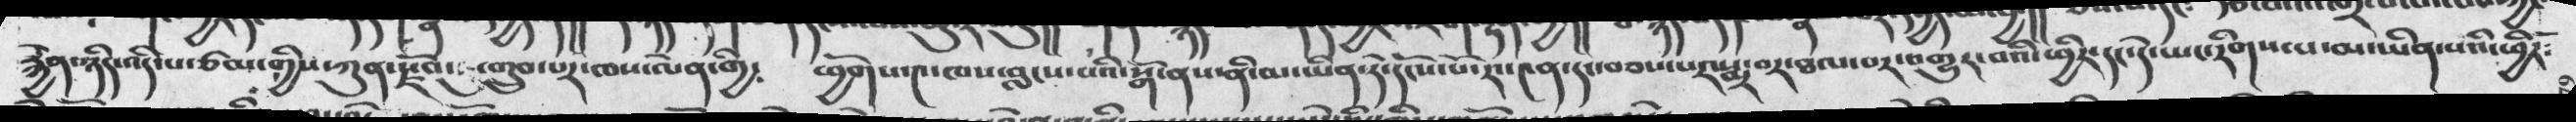རྐྱེན་ཉིད་འདི་པ་ཙམ་གྱིས་ཀུན་རྫོབ་ཏུ་གྲུབ་པར་ཁས་ལེན་གྱི༴  ཕྱོགས་༤་ཁས་བླངས་པའི་སྒོ་ནས་ནི་མ་ཡིན་ཏེ་དངོས་པོ་རང་༤ན་དང་བབས་པར་སྨྲ་བར་ཐལ་བར་འགྱུར་བའི་ཕྱིར་དང་དེ་ཡང་རིགས་པ་མ་ཡིན་པའི་ཕྱིརོ༴
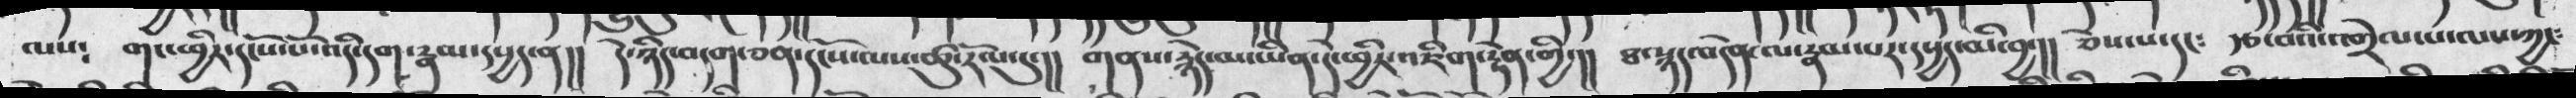ལས༴  གང་ཕྱིར་དངོས་པོ་འདི་དག་རྣམ་དཔྱད་ན།།   དེ་ཉིད་བདག་ཅན་དངོས་ལས་ཚུལ་རོལ་དུ་།།   གནས་རྙེད་མ་ཡིན་དེ་ཕྱིར་འཇིག་རྟེན་གྱི་།།   ཐ་སྙད་བདེན་ལ་རྣམ་པར་དཔྱད་མི་བྱ་།།  ཅེས་པ་དང༴   རྩ་བའི་འགྲེལ་པ་ལསཀྱང་
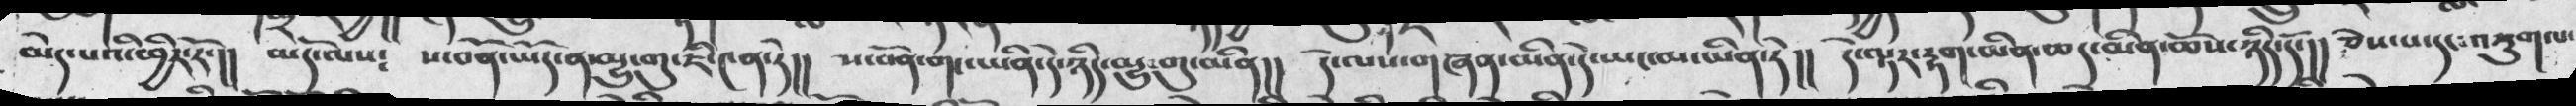མརད་པའི་ཕྱིར་རོ་།།   མདོ་ལས༴  ས་བོན་ཡོད་ན་མྱུ་གུ་ཇི་༤ན་ཏེ།།  ས་བོན་གང་ཡིན་དེ་ཉིད་མྱུ་གུ་ཡིན།།  དེ་ལས་གཞན་མིན་དེ་ཡང་མ་ཡིན་ཏེ།།  དེ་ལྟར་རྟག་མིན་ཆད་མིན་ཆོས་ཉིད་དོ་།།   ཅེས་པ་དང་འཇུག་པ་
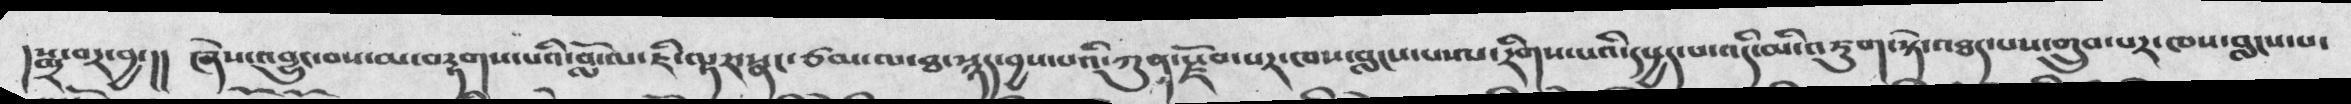། སྨྲ་བར་བྱ་།།   ཞེས་འབྱུང་བས་མ་བརྟགས་པའི་བློ་ལ་ཇི་ལྟར་སྣང་ཙམ་ལ་ཐ་སྙད་བྱས་པའི་ཀུན་སྫོབ་པར་ཁས་བླངས་པ་ལ་རིགས་པའི་དཔྱད་པ་འདི་མི་འཇུག་སྟེ་འཐད་པས་གྲུབ་པར་ཁས་བླངས་པ་
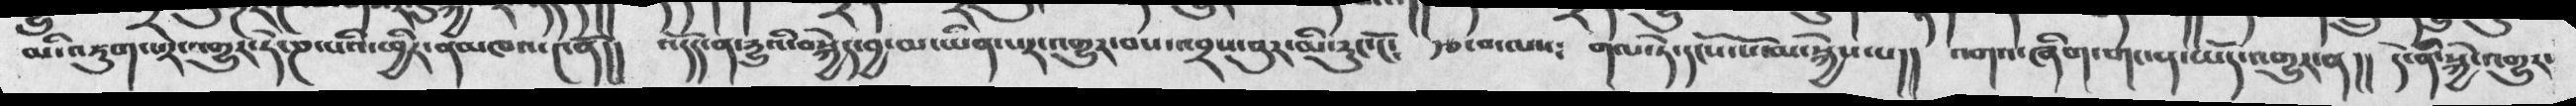མི་འཇུག་པར་འགྱུར་ཏེ་ཎ་པའི་ཕྱིར་ནམཁའ་༤ནོ།།  འདོད་ན་དྱུའི་བསྐྱེད་བྱ་མ་ཡིན་པར་འགྱུར་བས་འབྲས་བུར་མི་རུང་ངོ༴   རྩ་བ་ལས༴   གལ་ཏེ་དངོས་པོ་མ་སྐྱེས་པ།།  འགའ་ཞིག་གང་ན་ཡོད་འགྱུར་ན།།  དེ་ནི་སྐྱེ་འགྱུར་
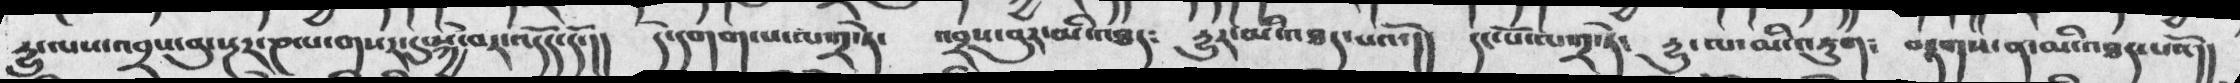དྱུ་་ལས་འབྲས་བུ་སྔར་ཎ་པ་གསར་དུ་སྐྱེ་བར་འདོད་དོ་།།  དེ་དགག་པ་ལ་༢་ཏེ་   འབྲས་བུར་མི་འཐད༴    དྱུར་མི་འཐད་པའོ་།།  དང་ོཔོ་ལ་༢་ཏེ་   དྱུ་ལ་མི་འཇུག༴   བརྟགས་ན་མི་འཐད་པའོ།།
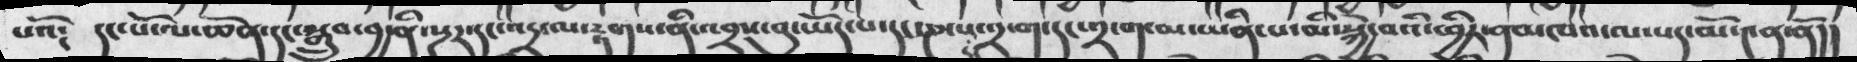པའོ༴  དང་པོ་ལ་ཆེན་དང་སྒྲུབ་བྱ་ནི་སྔར་དང་འདྲ་ལ་རྟགས་ནི་འབྲས་བུ་ཡོད་པ་དང་ཎ་པ་༢་ག་དང་༢་ག་མ་ཡིན་པ་མི་སྐྱེ་བའི་ཕྱིར་ནམཁའ་ལ་པད་མོ་༤ན་ནོ།།
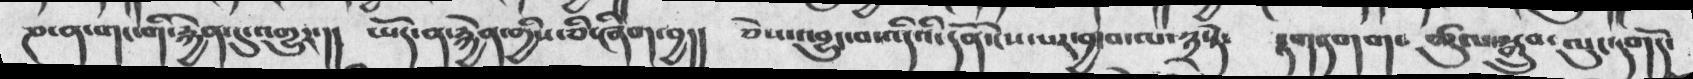ཎ་ན་གང་གི་རྐྱེན་དུ་འགྱུར་།།   ཡོད་ན་རྐྱེན་གྱིས་ཅི་ཞིག་བྱ།།   ཅེས་འབྱུང་བ་འདིའི་དོན་ངེས་པར་བྱ་བ་ལ་༣་ཏེ་   རྟག་དགག་ ཚུལ་སྒྲུབ་ལུང་དགོད་
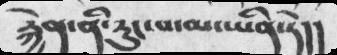རྐྱེན་ནི་རུང་བ་མ་ཡིན་ཏེ།།
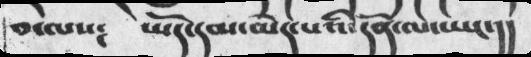བ་ལས༴      ཡོད་དམ་མེད་པའི་དོན་ལ་ཡང་།།
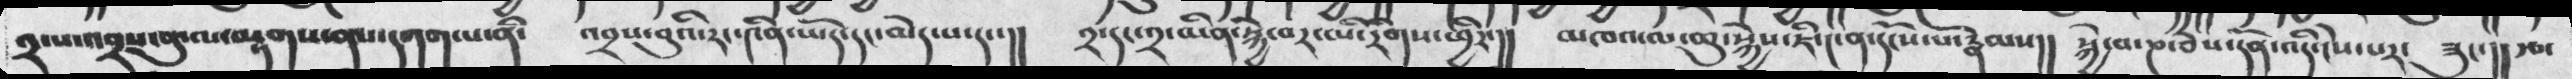༢་པ་འབྲས་བུ་ལ་བརྟགས་ནས་དགག་པ་ནི་   འབྲས་བུའི་རང་༤ིན་ཡོད་དང་མེད་པ་དང་།།  ༢་དང་༢་མིན་སྐྱེ་བར་མི་རིགས་ཕྱིར་།།  མཁའ་ལ་ཆུ་སྐྱེས་ཇི་༤ན་དངོས་པོ་རྣམས།།    སྐྱེ་བ་གནས་བས་དོན་འདི་ངེས་པར་ཟུང་།། རྩ་
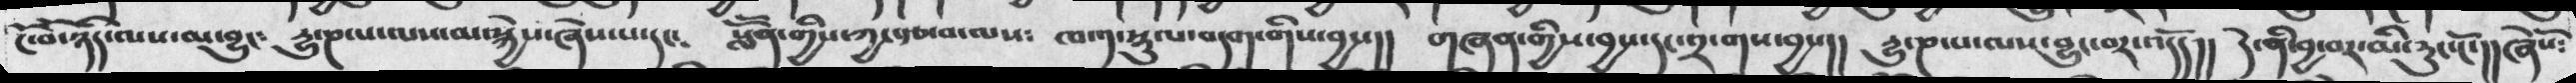ངོ་བོ་ཉིད་ལས་མ་བྱུང༴   དྱུ་ཎ་པ་ལས་མ་སྐྱེས་ཞེས་པ་དང༴  སློོན་གྱིས་ཀྱང་རྩ་བ་ལས༴  ཁ་༡་སྡུལ་བདག་གིས་བྱས།།   གཞན་གྱིས་བྱས་དང་༢་གས་བྱས།།  དྱུ་ཎ་པ་ལས་བྱུང་བར་འདོད།།   དེ་ནི་བྱ་བར་མི་རུང་ངོ་།།  ཞེསོ༴
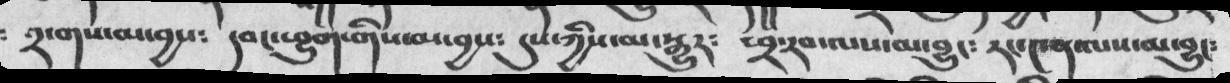༢་གས་མ་བྱས་༴   དབང་ཕྱུག་གིས་མ་བྱས་༴   དུས་ཀྱིས་མ་སྒྱུར༴  ཕྲ་རབ་ལས་མ་བྱུང༴  རང་༤ན་ལས་མ་བྱུང༴
